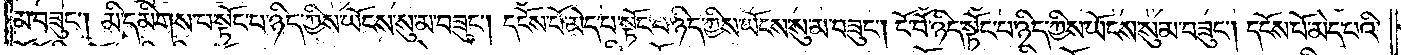བཟུང༌། མི་དམིགས་པ་སྟོང་པ་ཉིད་ཀྱིས་ཡོངས་སུ་མ་བཟུང༌། དངོས་པོ་མེད་པ་སྟོང་པ་ཉིད་ཀྱིས་ཡོངས་སུ་མ་བཟུང༌། ངོ་བོ་ཉིད་སྟོང་པ་ཉིད་ཀྱིས་ཡོངས་སུ་མ་བཟུང༌། དངོས་པོ་མེད་པའི་
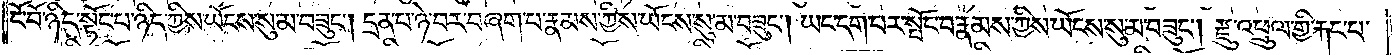ངོ་བོ་ཉིད་སྟོང་པ་ཉིད་ཀྱིས་ཡོངས་སུ་མ་བཟུང༌། དྲན་པ་ཉེ་བར་བཞག་པ་རྣམས་ཀྱིས་ཡོངས་སུ་མ་བཟུང༌། ཡང་དག་པར་སྤོང་བ་རྣམས་ཀྱིས་ཡོངས་སུ་མ་བཟུང༌། རྫུ་འཕྲུལ་གྱི་རྐང་པ་
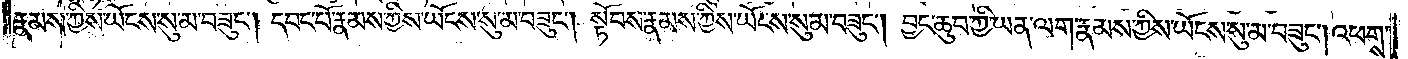རྣམས་ཀྱིས་ཡོངས་སུ་མ་བཟུང༌། དབང་པོ་རྣམས་ཀྱིས་ཡོངས་སུ་མ་བཟུང༌། སྟོབས་རྣམས་ཀྱིས་ཡོངས་སུ་མ་བཟུང༌། བྱང་ཆུབ་ཀྱི་ཡན་ལག་རྣམས་ཀྱིས་ཡོངས་སུ་མ་བཟུང༌། འཕགས་
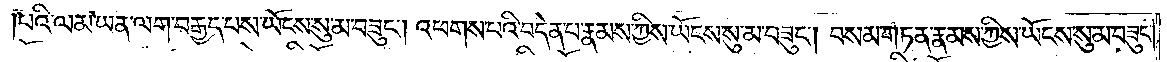པའི་ལམ་ཡན་ལག་བརྒྱད་པས་ཡོངས་སུ་མ་བཟུང༌། འཕགས་པའི་བདེན་པ་རྣམས་ཀྱིས་ཡོངས་སུ་མ་བཟུང༌། བསམ་གཏན་རྣམས་ཀྱིས་ཡོངས་སུ་མ་བཟུང༌།
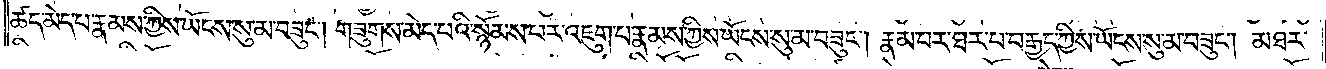ཚད་མེད་པ་རྣམས་ཀྱིས་ཡོངས་སུ་མ་བཟུང༌། གཟུགས་མེད་པའི་སྙོམས་པར་འཇུག་པ་རྣམས་ཀྱིས་ཡོངས་སུ་མ་བཟུང༌། རྣམ་པར་ཐར་པ་བརྒྱད་ཀྱིས་ཡོངས་སུ་མ་བཟུང༌། མཐར་
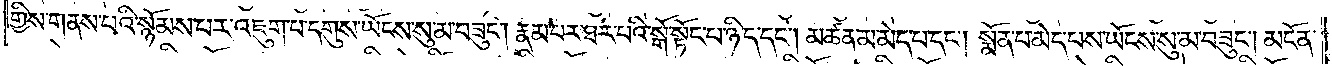གྱིས་གནས་པའི་སྙོམས་པར་འཇུག་པ་དགུས་ཡོངས་སུ་མ་བཟུང༌། རྣམ་པར་ཐར་པའི་སྒོ་སྟོང་པ་ཉིད་དང༌། མཚན་མ་མེད་པ་དང༌། སྨོན་པ་མེད་པས་ཡོངས་སུ་མ་བཟུང༌། མངོན་
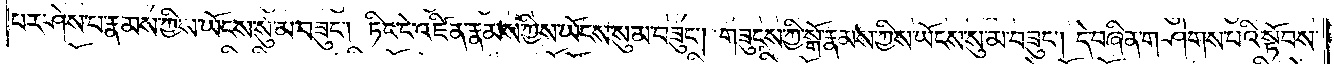པར་ཤེས་པ་རྣམས་ཀྱིས་ཡོངས་སུ་མ་བཟུང༌། ཏིང་ངེ་འཛིན་རྣམས་ཀྱིས་ཡོངས་སུ་མ་བཟུང༌། གཟུངས་ཀྱི་སྒོ་རྣམས་ཀྱིས་ཡོངས་སུ་མ་བཟུང༌། དེ་བཞིན་གཤེགས་པའི་སྟོབས་
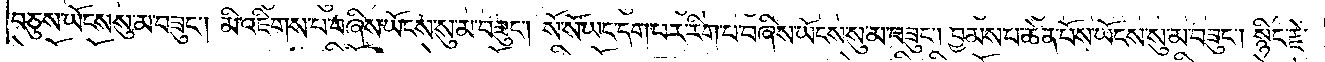བཅུས་ཡོངས་སུ་མ་བཟུང༌། མི་འཇིགས་པ་བཞིས་ཡོངས་སུ་མ་བཟུང༌། སོ་སོ་ཡང་དག་པར་རིག་པ་བཞིས་ཡོངས་སུ་མ་བཟུང༌། བྱམས་པ་ཆེན་པོས་ཡོངས་སུ་མ་བཟུང༌། སྙིང་རྗེ་
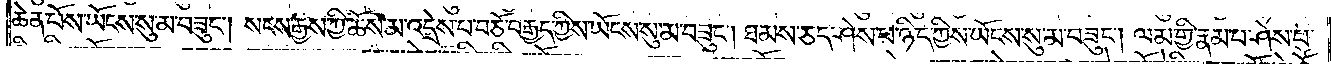ཆེན་པོས་ཡོངས་སུ་མ་བཟུང༌། སངས་རྒྱས་ཀྱི་ཆོས་མ་འདྲེས་པ་བཅོ་བརྒྱད་ཀྱིས་ཡོངས་སུ་མ་བཟུང༌། ཐམས་ཅད་ཤེས་པ་ཉིད་ཀྱིས་ཡོངས་སུ་མ་བཟུང༌། ལམ་གྱི་རྣམ་པ་ཤེས་པ་
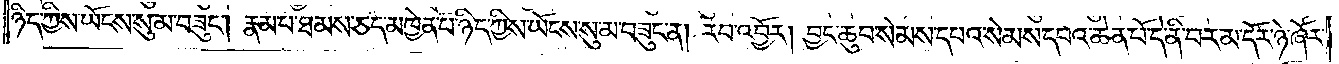ཉིད་ཀྱིས་ཡོངས་སུ་མ་བཟུང༌། རྣམ་པ་ཐམས་ཅད་མཁྱེན་པ་ཉིད་ཀྱིས་ཡོངས་སུ་མ་བཟུང་ན། རབ་འབྱོར། བྱང་ཆུབ་སེམས་དཔའ་སེམས་དཔའ་ཆེན་པོ་དེ་ནི་བར་མ་དོར་ཉེ་ཞོར་
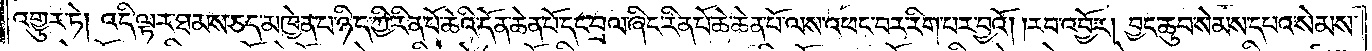འགྱུར་ཏེ། འདི་ལྟར་ཐམས་ཅད་མཁྱེན་པ་ཉིད་ཀྱི་རིན་པོ་ཆེའི་དོན་ཆེན་པོ་དང་བྲལ་ཞིང་རིན་པོ་ཆེ་ཆེན་པོ་ལས་འཕང་བར་རིག་པར་བྱའོ། །རབ་འབྱོར། བྱང་ཆུབ་སེམས་དཔའ་སེམས་
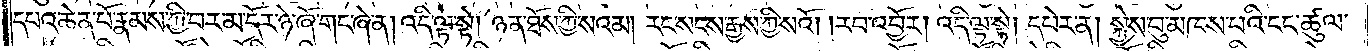དཔའ་ཆེན་པོ་རྣམས་ཀྱི་བར་མ་དོར་ཉེ་ཞོ་གང་ཞེ་ན། འདི་ལྟ་སྟེ། ཉན་ཐོས་ཀྱི་སའམ། རང་སངས་རྒྱས་ཀྱི་སའོ། །རབ་འབྱོར། འདི་ལྟ་སྟེ། དཔེར་ན། སྐྱེས་བུ་མཁས་པའི་ངང་ཚུལ་
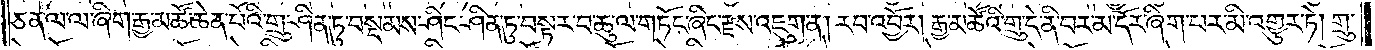ཅན་ལ་ལ་ཞིག་རྒྱ་མཚོ་ཆེན་པོའི་གྲུ་ཤིན་ཏུ་བསྡམས་ཤིང་ཤིན་ཏུ་བསྟར་བ་ཆུ་ལ་གཏོང་ཞིང་རྫས་འཇུག་ན། རབ་འབྱོར། རྒྱ་མཚོའི་གྲུ་དེ་ནི་བར་མ་དོར་ཞིག་པར་མི་འགྱུར་ཏེ། གྲུ་
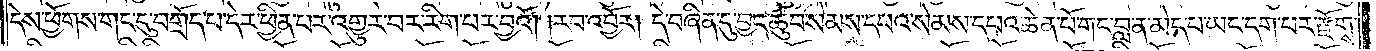དེས་ཕྱོགས་གང་དུ་བགྲོད་པ་དེར་ཕྱིན་པར་འགྱུར་བར་རིག་པར་བྱའོ། །རབ་འབྱོར། དེ་བཞིན་དུ་བྱང་ཆུབ་སེམས་དཔའ་སེམས་དཔའ་ཆེན་པོ་གང་བླ་ན་མེད་པ་ཡང་དག་པར་རྫོགས་
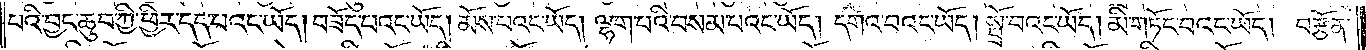པའི་བྱང་ཆུབ་ཀྱི་ཕྱིར་དད་པའང་ཡོད། བཟོད་པའང་ཡོད། མོས་པའང་ཡོད། ལྷག་པའི་བསམ་པའང་ཡོད། དགའ་བའང་ཡོད། སྤྲོ་བའང་ཡོད། མི་གཏོང་བའང་ཡོད། བརྩོན་
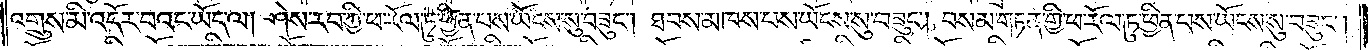འགྲུས་མི་འདོར་བའང་ཡོད་ལ། ཤེས་རབ་ཀྱི་ཕ་རོལ་ཏུ་ཕྱིན་པས་ཡོངས་སུ་བཟུང༌། ཐབས་མཁས་པས་ཡོངས་སུ་བཟུང༌། བསམ་གཏན་གྱི་ཕ་རོལ་ཏུ་ཕྱིན་པས་ཡོངས་སུ་བཟུང༌།
